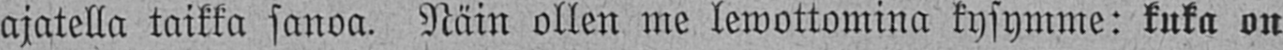ajatella taikka sanoa. Näin ollen me lewottomina kysymme: kuka on
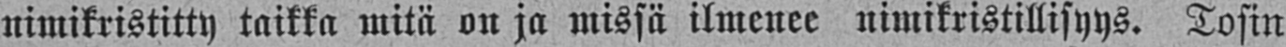nimikristitty taikka mitä on ja missä ilmenee nimikristillisyys. Tosin
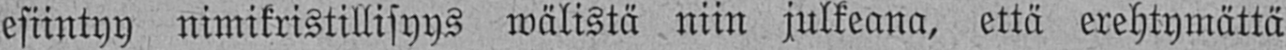esiintyy nimikristillisyys wälistä niin julkeana, että erehtymättä
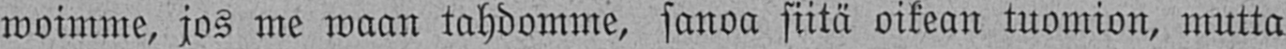woimme, jos me waan tahdomme, sanoa siitä oikean tuomion, mutta
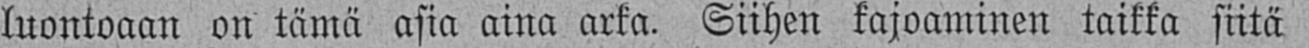luontoaan on tämä asia aina arka. Siihen kajoaminen taikka siitä
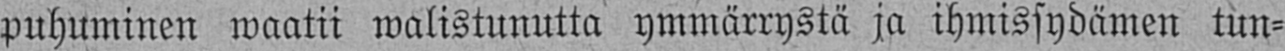puhuminen waatii walistunutta ymmärrystä ja ihmissydämen tun-
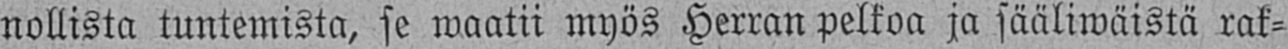nollista tuntemista, se waatii myös Herran peltoa ja sääliwäistä rak-
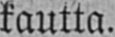kautta.
